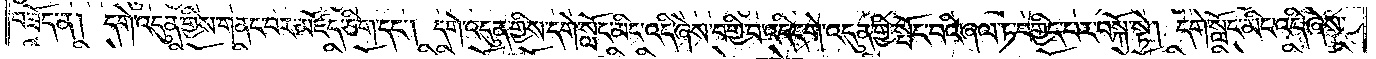བཟོད་ན། དགེ་འདུན་གྱིས་གནང་བར་མཛོད་ཅིག་དང༌། དགེ་འདུན་གྱིས་དགེ་སློང་མིང་འདི་ཞེས་བགྱི་བ་འདི་དགེ་འདུན་གྱི་སྤོང་བའི་ཞལ་ཏ་བགྱིད་པར་བསྐོ་སྟེ། དགེ་སློང་མིང་འདི་ཞེས་
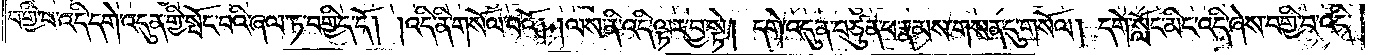བགྱི་བ་འདི་དགེ་འདུན་གྱི་སྤོང་བའི་ཞལ་ཏ་བགྱིད་དོ། །འདི་ནི་གསོལ་བའོ། །ལས་ནི་འདི་ལྟར་བྱ་སྟེ། དགེ་འདུན་བཙུན་པ་རྣམས་གསན་དུ་གསོལ། དགེ་སློང་མིང་འདི་ཞེས་བགྱི་བ་འདི་
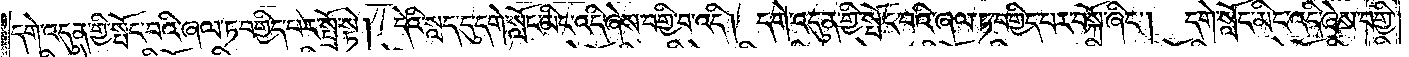དགེ་འདུན་གྱི་སྤོང་བའི་ཞལ་ཏ་བགྱིད་པར་སྤྲོ་སྟེ། དེའི་སླད་དུ་དགེ་སློང་མིང་འདི་ཞེས་བགྱི་བ་འདི། དགེ་འདུན་གྱི་སྤོང་བའི་ཞལ་ཏ་བགྱིད་པར་བསྐོ་ཞིང༌། དགེ་སློང་མིང་འདི་ཞེས་བགྱི་
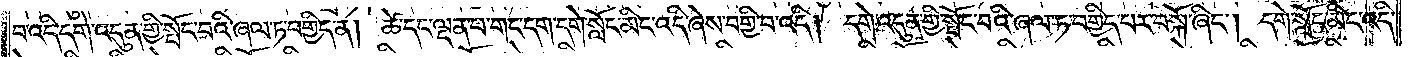བ་འདི་དགེ་འདུན་གྱི་སྤོང་བའི་ཞལ་ཏ་བགྱིད་ན། ཚེ་དང་ལྡན་པ་གང་དག་དགེ་སློང་མིང་འདི་ཞེས་བགྱི་བ་འདི། དགེ་འདུན་གྱི་སྤོང་བའི་ཞལ་ཏ་བགྱིད་པར་བསྐོ་ཞིང༌། དགེ་སློང་མིང་འདི་
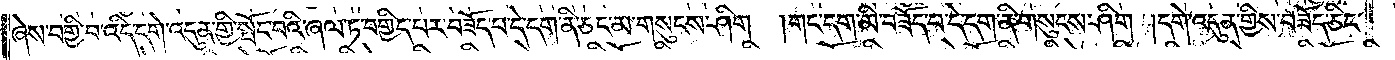ཞེས་བགྱི་བ་འདི་དགེ་འདུན་གྱི་སྤོང་བའི་ཞལ་ཏ་བགྱིད་པར་བཟོད་པ་དེ་དག་ནི་ཅང་མ་གསུངས་ཤིག །གང་དག་མི་བཟོད་པ་དེ་དག་ནི་གསུངས་ཤིག །དགེ་འདུན་གྱིས་བཟོད་ཅིང་
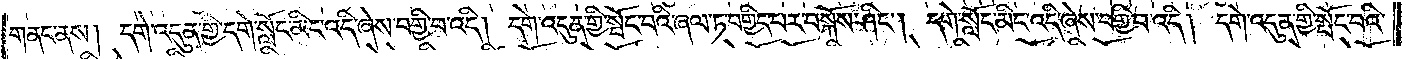གནང་ནས། དགེ་འདུན་གྱི་དགེ་སློང་མིང་འདི་ཞེས་བགྱི་བ་འདི། དགེ་འདུན་གྱི་སྤོང་བའི་ཞལ་ཏ་བགྱིད་པར་བསྐོས་ཤིང༌། དགེ་སློང་མིང་འདི་ཞེས་བགྱི་བ་འདི། དགེ་འདུན་གྱི་སྤོང་བའི་
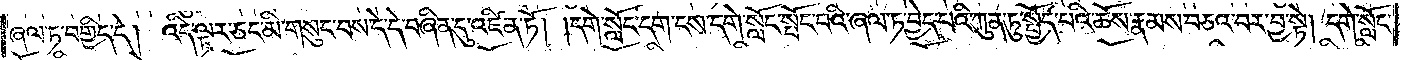ཞལ་ཏ་བགྱིད་དེ། འདི་ལྟར་ཅང་མི་གསུང་བས་དེ་དེ་བཞིན་དུ་འཛིན་ཏོ། །དགེ་སློང་དག་ངས་དགེ་སློང་སྤོང་བའི་ཞལ་ཏ་བྱེད་པའི་ཀུན་ཏུ་སྤྱོད་པའི་ཆོས་རྣམས་བཅའ་བར་བྱ་སྟེ། དགེ་སློང་
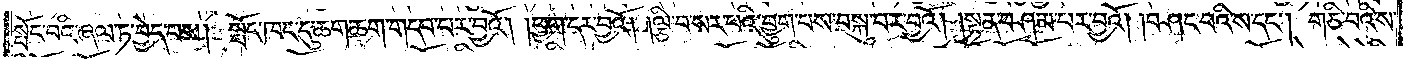སྤོང་བའི་ཞལ་ཏ་བྱེད་པས། སྤོང་ཁང་དུ་ཆག་ཆག་གདབ་པར་བྱའོ། །ཕྱག་དར་བྱའོ། །ལྕི་བ་སར་པའི་བྱུག་པས་བསྐུ་བར་བྱའོ། །སྟན་བཤམ་པར་བྱའོ། །བཤང་བའི་ས་དང༌། གཅི་བའི་ས་
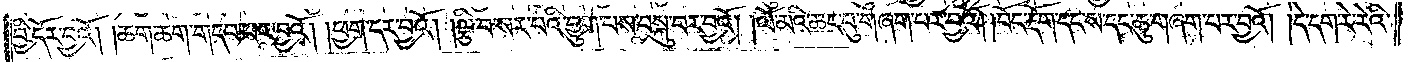བྱི་དོར་བྱའོ། །ཆག་ཆག་གདབ་བར་བྱའོ། །ཕྱག་དར་བྱའོ། །ལྕི་བ་སར་པའི་བྱུག་པས་བསྐུ་བར་བྱའོ། །ལོ་མའི་ཆང་བུ་གཞག་པར་བྱའོ། །བོང་རྡོག་དང་ས་དང་ཆུ་གཞག་པར་བྱའོ། །དེ་དག་རེ་རེའི་
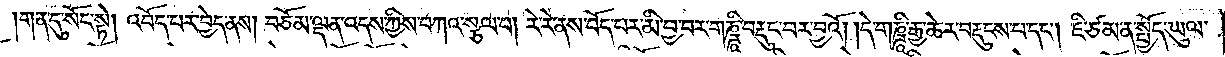གན་དུ་སོང་སྟེ། འབོད་པར་བྱེད་ནས། བཅོམ་ལྡན་འདས་ཀྱིས་བཀའ་སྩལ་པ། རེ་རེ་ནས་བོད་པར་མི་བྱ་བར་གཎྜཱི་བརྡུང་བར་བྱའོ། །དེ་གཎྜཱི་རྒྱ་ཆེར་བརྡུངས་བ་དང༌། ཇི་ཙམ་ན་སྤྱོད་ཡུལ་
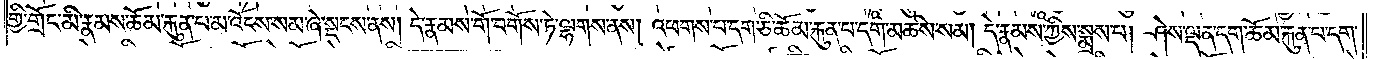གྱི་གྲོང་མི་རྣམས་ཆོམ་རྐུན་ཕ་མ་འོངས་སམ་ཞེ་སྡངས་ནས། དེ་རྣམས་གོ་བགོས་ཏེ་ལྷགས་ནས། འཕགས་པ་དག་ཅི་ཆོམ་རྐུན་པ་དག་མཆིས་སམ། དེ་རྣམས་ཀྱིས་སྨྲས་པ། ཤེས་ལྡན་དག་ཆོམ་རྐུན་པ་དག་
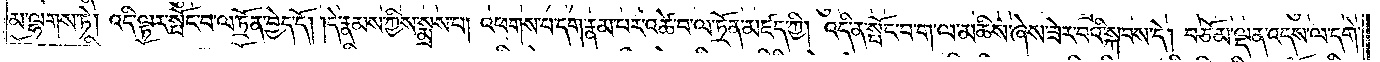མ་ལྷགས་ཏེ། འདི་ལྟར་སྤོང་བ་ལ་ཏྲོན་བྱེད་དོ། །དེ་རྣམས་ཀྱིས་སྨྲས་པ། འཕགས་པ་དག་རྣམ་པར་འཚེ་བ་ལ་ཏྲོན་མཛད་ཀྱི། འདི་ན་སྤོང་བ་ག་ལ་མཆིས་ཞེས་ཟེར་བའི་སྐབས་དེ། བཅོམ་ལྡན་འདས་ལ་དགེ་
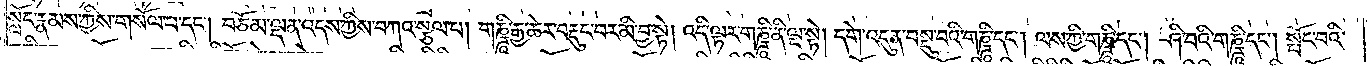སློང་རྣམས་ཀྱིས་གསོལ་པ་དང༌། བཅོམ་ལྡན་འདས་ཀྱིས་བཀའ་སྩལ་པ། གཎྜཱི་རྒྱ་ཆེར་བརྡུང་བར་མི་བྱ་སྟེ། འདི་ལྟར་གཎྜཱི་ནི་ལྔ་སྟེ། དགེ་འདུན་བསྡུ་བའི་གཎྜཱི་དང༌། ལས་ཀྱི་གཎྜཱི་དང༌། ཤི་བའི་གཎྜཱི་དང༌། སྤོང་བའི་
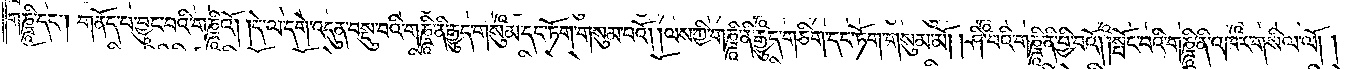གཎྜཱི་དང༌། གནོད་པ་བྱུང་བའི་གཎྜཱིའོ། །དེ་ལ་དགེ་འདུན་བསྡུ་བའི་གཎྜཱི་ནི་རྒྱུད་གསུམ་དང་ཏོག་གསུམ་པའོ། །ལས་ཀྱི་གཎྜཱི་ནི་རྒྱུད་གཅིག་དང་ཏོག་གསུམ་མོ། །ཤི་བའི་གཎྜཱི་ནི་བྱི་བའོ། །སྤོང་བའི་གཎྜཱི་ནི་འཁར་གསིལ་ལོ། །
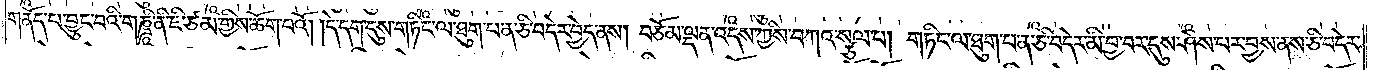གནོད་པ་བྱུང་བའི་གཎྜཱི་ནི་ཇི་ཙམ་གྱིས་ཆོག་པའོ། །དེ་དག་དུས་གཏིང་ལ་ཐུག་པ་ན་ཅི་བདེར་བྱེད་ནས། བཅོམ་ལྡན་འདས་ཀྱིས་བཀའ་སྩལ་པ། གཏིང་ལ་ཐུག་པ་ན་ཅི་བདེར་མི་བྱ་བར་དུས་ཤེས་པར་བྱས་ནས་ཅི་བདེར་
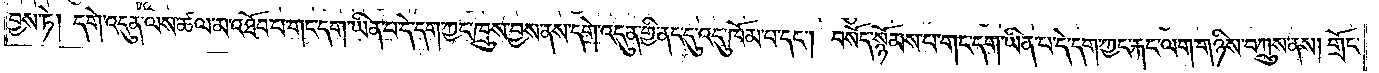བྱས་ཏེ། དགེ་འདུན་ལས་ཚལ་མ་འཐོབ་པ་གང་དག་ཡིན་པ་དེ་དག་ཀྱང་ཁྲུས་བྱས་ནས་དགེ་འདུན་གྱི་ནང་དུ་འདུ་ཁོམ་པ་དང༌། བསོད་སྙོམས་པ་གང་དག་ཡིན་པ་དེ་དག་ཀྱང་རྐང་ལག་གཉིས་བཀྲུས་ནས། གྲོང་
